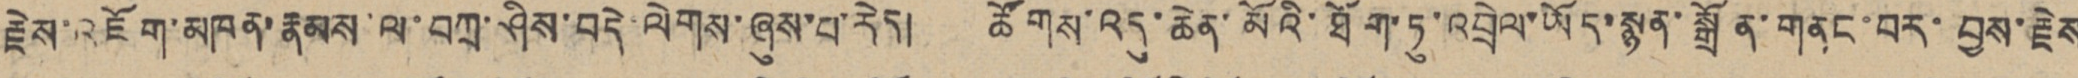རྗེས་འཇོག་མཁན་རྣམས་ལ་བཀྲ་ཤིས་བདེ་ལེགས་ཞུས་པ་རེད། ཚོགས་འདུ་ཆེན་མོའི་ཐོག་ཏུ་འབྲེལ་ཡོད་སྙན་སྒྲོན་གནང་བར་བྱས་རྗེས
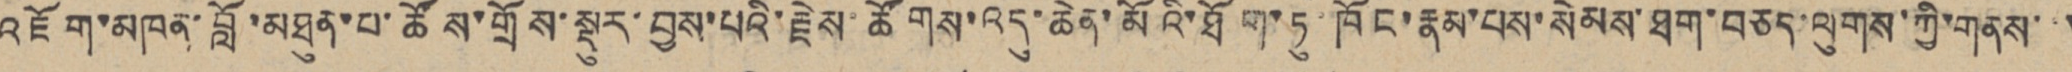འཇོག་མཁན་བློ་མཐུན་པ་ཚོས་གྲོས་སྡུར་བྱས་པའི་རྗེས་ཚོགས་འདུ་ཆེན་མོའི་ཐོག་ཏུ་ཁོང་རྣམ་པས་སེམས་ཐག་བཅད་ལུགས་ཀྱི་གནས་་་
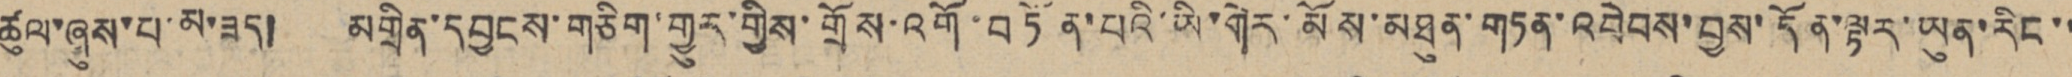ཚུལ་ཞུས་པ་མ་ཟད། མགྲིན་དབྱངས་གཅིག་གྱུར་གྱིས་གྲོས་འགོ་བཏོན་པའི་ཡི་གེར་མོས་མཐུན་གཏན་འབེབས་བྱས་དོན་ལྟར་ཡུན་རིང་་
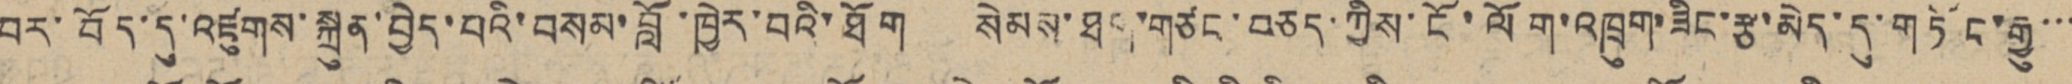བར་བོད་དུ་འཛུགས་སྐྲུན་བྱེད་པའི་བསམ་བློ་ཁྱེར་བའི་ཐོག སེམས་ཐག་གཙང་བཅད་ཀྱིས་ངོ་ལོག་འཁྲུག་ཟིང་རྩ་མེད་དུ་གཏོང་རྒྱུ་་་
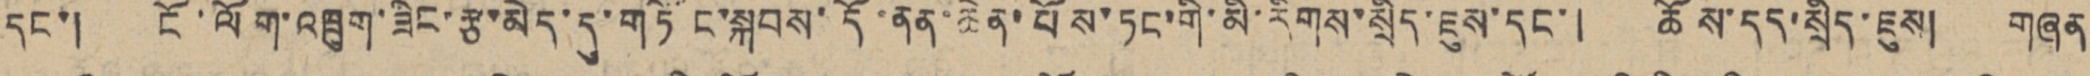དང་། ངོ་ལོག་འཁྲུག་ཟིང་རྩ་མེད་དུ་གཏོང་སྐབས་དོ་ནན་ཆེན་པོས་ཏང་གི་མི་རིགས་སྲིད་ཇུས་དང་། ཆོས་དད་སྲིད་ཇུས། གཞན
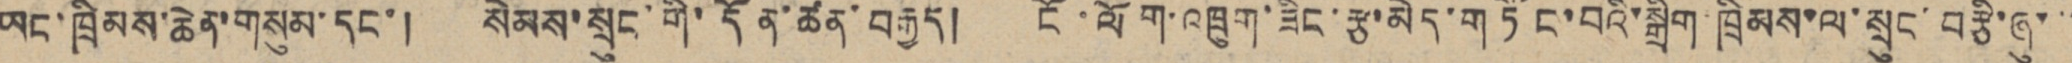ཡང་ཁྲིམས་ཆེན་གསུམ་དང་། སེམས་སྲུང་གི་དོན་ཚན་བརྒྱད། ངོ་ལོག་འཁྲུག་ཟིང་རྩ་མེད་གཏོང་བའི་སྒྲིག ཁྲིམས་ལ་སྲུང་བརྩི་ཞུ་་་
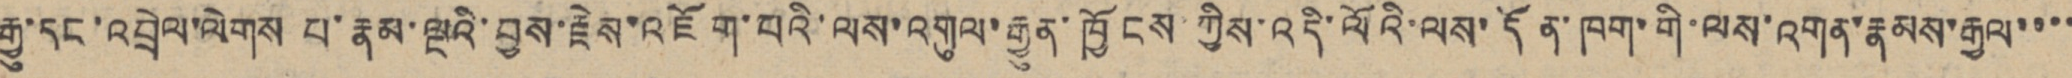རྒྱུ་དང་འབྲེལ་ལེགས པ་རྣམ་ལྔའི་བྱས་རྗེས་འཇོག་པའི་ལས་འགུལ་རྒྱུན་ཁྱོངས ཀྱིས་འདི་ལོའི་ལས་དོན་ཁག་གི་ལས་འགན་རྣམས་རྒྱལ་་་་
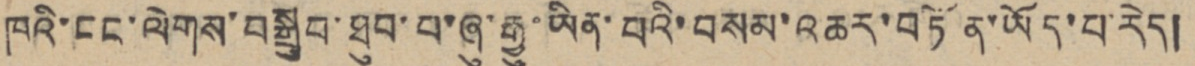ཁའི་ངང་ལེགས་བསྒྲུབ་ཐུབ་པ་ཞུ་རྒྱུ་ཡིན་པའི་བསམ་འཆར་བཏོན་ཡོད་པ་རེད།
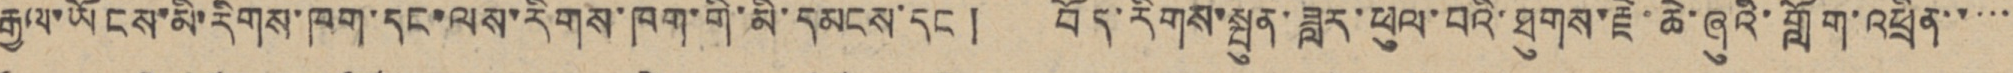རྒྱལ་ཡོངས་མི་རིགས་ཁག་དང་ལས་རིགས་ཁག་གི་མི་དམངས་དང ། བོད་རིགས་སྤུན་ཟླར་ཕུལ་བའི་ཐུགས་རྗེ་ཆེ་ཞུའི་གློག་འཕྲིན་་་་་
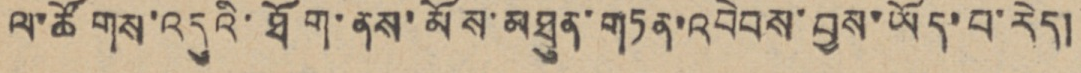ལ་ཚོགས་འདུའི་ཐོག་ནས་མོས་མཐུན་གཏན་འབེབས་བྱས་ཡོད་པ་རེད།
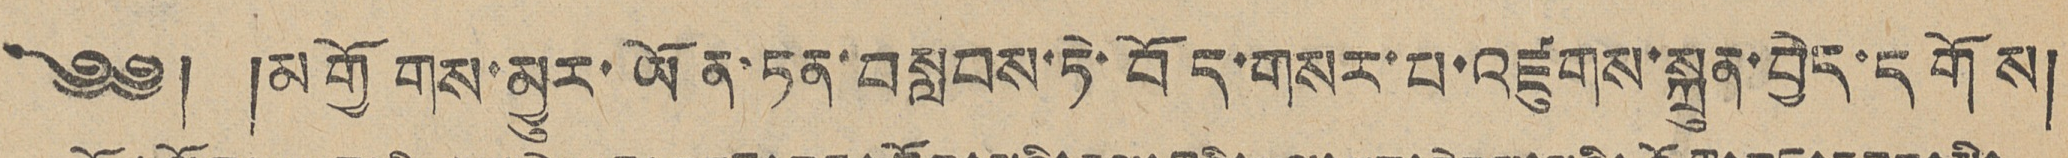༄༅། །མགྱོགས་མྱུར་ཡོན་ཏན་བསླབས་ཏེ་བོད་གསར་པ་འཛུགས་སྐྲུན་བྱེད་དགོས།
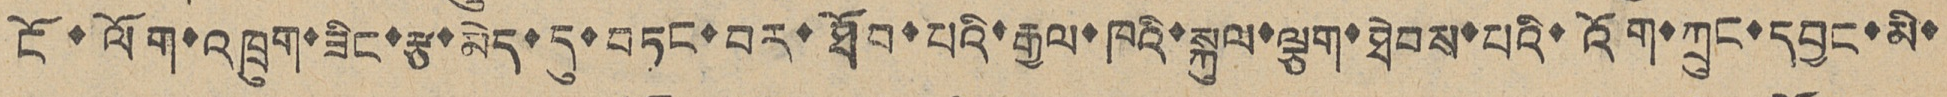ངོ་ལོག་འཁྲུག་ཟིང་རྩ་མེད་དུ་བཏང་བར་ཐོབ་པའི་རྒྱལ་ཁའི་སྐུལ་ལྕག་ཐེབས་པའི་འོག་ཀྲུང་དབྱང་མི་
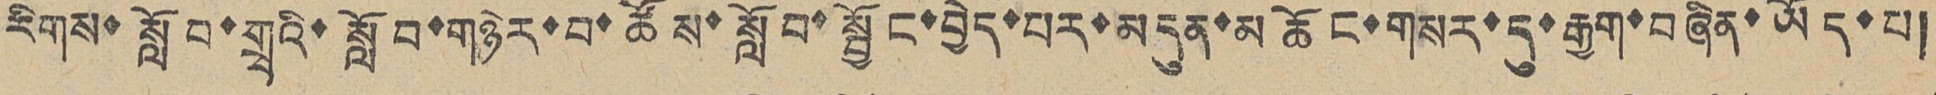རིགས་སློབ་གྲྭའི་སློབ་གཉེར་བ་ཚོས་སློབ་སྦྱོང་བྱེད་པར་མདུན་མཆོང་གསར་དུ་རྒྱག་བཞིན་ཡོད་པ།
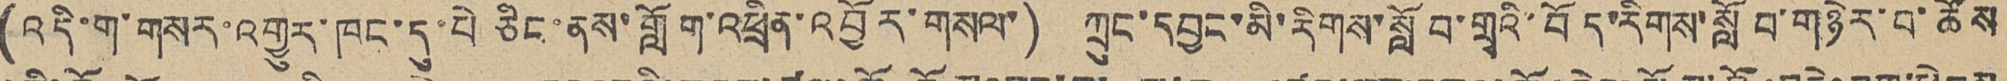(འདི་ག་གསར་འགྱུར་ཁང་དུ་པེ ཅིང་ནས་གློག་འཕྲིན་འབྱོར་གསལ་) ཀྲུང་དབྱང་མི་རིགས་སློབ་གྲྭའི་བོད་རིགས་སློབ་གཉེར་བ་ཚོས
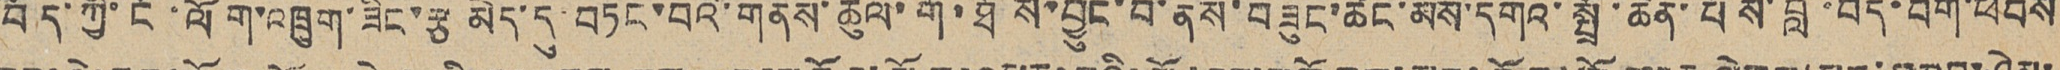བོད་ཀྱི་ངོ་ལོག་འཁྲུག་ཟིང་རྩ མེད་དུ་བཏང་བའི་གནས་ཚུལ་གོ་ཐོས་བྱུང་བ་ནས་བཟུང་ཚང་མས་དགའ་སྤྲོ་ཆེན་པོས་བློ་བདེ་བག་ཕེབས
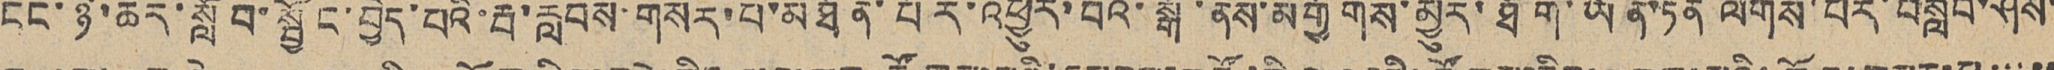ངང་ཉེ་ཆར་སློབ་སྦྱོང་བྱེད་པའི་རྦ་རླབས་གསར་པ་མཐོན་པོར་འཕྱུར་བའི་སྒོ་ནས་མགྱོགས་མྱུར་ཐོག་ཡོན་ཏན ལེགས་པར་བསླབ་ཤེས་
